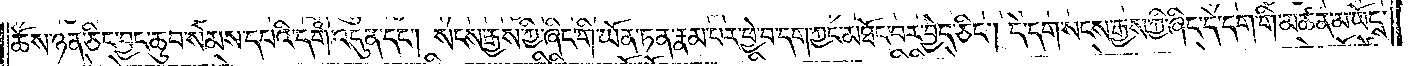ཆོས་ཉན་ཅིང་བྱང་ཆུབ་སེམས་དཔའི་དགེ་འདུན་དང༌། སངས་རྒྱས་ཀྱི་ཞིང་གི་ཡོན་ཏན་རྣམ་པར་ཕྱེ་བ་དག་ཀྱང་མཐོང་བར་བྱེད་ཅིང༌། དེ་དག་སངས་རྒྱས་ཀྱི་ཞིང་དེ་དག་གི་མཚན་མ་ཡོངས་
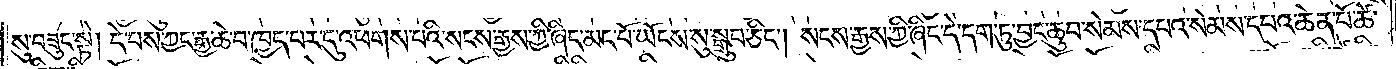སུ་བཟུང་སྟེ། དེ་བས་ཀྱང་རྒྱ་ཆེ་བ་ཁྱད་པར་དུ་འཕགས་པའི་སངས་རྒྱས་ཀྱི་ཞིང་མང་པོ་ཡོངས་སུ་སྒྲུབ་ཅིང༌། སངས་རྒྱས་ཀྱི་ཞིང་དེ་དག་ཏུ་བྱང་ཆུབ་སེམས་དཔའ་སེམས་དཔའ་ཆེན་པོ་ཚེ་
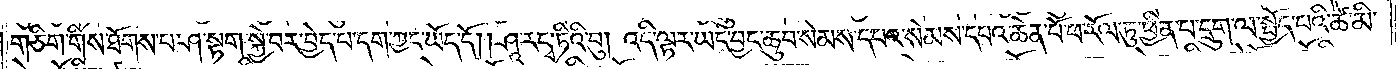གཅིག་གིས་ཐོགས་པ་ཤ་སྟག་སྐྱེ་བར་བྱེད་པ་དག་ཀྱང་ཡོད་དོ། །ཤཱ་རདྭ་ཏིའི་བུ། འདི་ལྟར་ཡང་བྱང་ཆུབ་སེམས་དཔའ་སེམས་དཔའ་ཆེན་པོ་ཕ་རོལ་ཏུ་ཕྱིན་པ་དྲུག་ལ་སྤྱོད་པའི་ཚེ་མི་
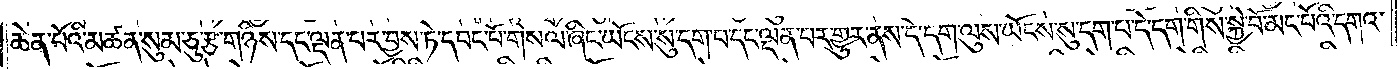ཆེན་པོའི་མཚན་སུམ་ཅུ་རྩ་གཉིས་དང་ལྡན་པར་བྱས་ཏེ་དབང་པོ་གསལ་ཞིང་ཡོངས་སུ་དག་པ་དང་ལྡན་པར་གྱུར་ནས་དེ་དག་ལུས་ཡོངས་སུ་དག་པ་དེ་དག་གིས་སྐྱེ་བོ་མང་པོའི་དགའ་
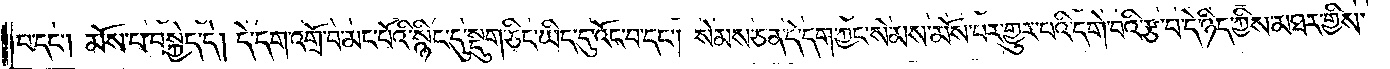བ་དང༌། མོས་པ་བསྐྱེད་དེ། དེ་དག་འགྲོ་བ་མང་པོའི་སྙིང་དུ་སྡུག་ཅིང་ཡིད་དུ་འོང་བ་དང༌། སེམས་ཅན་དེ་དག་ཀྱང་སེམས་མོས་པར་གྱུར་པའི་དགེ་བའི་རྩ་བ་དེ་ཉིད་ཀྱིས་མཐར་གྱིས་
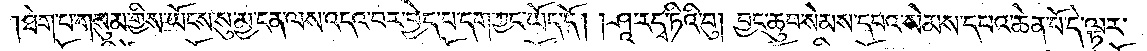ཐེག་པ་གསུམ་གྱིས་ཡོངས་སུ་མྱ་ངན་ལས་འདའ་བར་བྱེད་པ་དག་ཀྱང་ཡོད་དོ། །ཤཱ་ར་དྭ་ཏིའི་བུ། བྱང་ཆུབ་སེམས་དཔའ་སེམས་དཔའ་ཆེན་པོ་དེ་ལྟར་
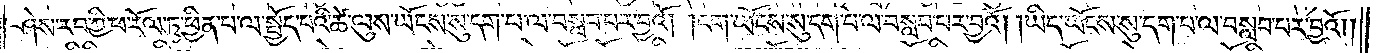ཤེས་རབ་ཀྱི་ཕ་རོལ་ཏུ་ཕྱིན་པ་ལ་སྤྱོད་པའི་ཚེ་ལུས་ཡོངས་སུ་དག་པ་ལ་བསླབ་པར་བྱའོ། །ངག་ཡོངས་སུ་དག་པ་ལ་བསླབ་པར་བྱའོ། །ཡིད་ཡོངས་སུ་དག་པ་ལ་བསླབ་པར་བྱའོ། །
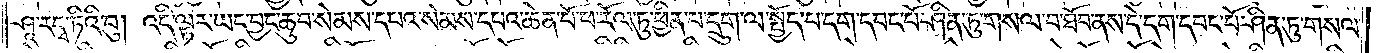ཤཱ་ར་དྭ་ཏིའི་བུ། འདི་ལྟར་ཡང་བྱང་ཆུབ་སེམས་དཔའ་སེམས་དཔའ་ཆེན་པོ་ཕ་རོལ་ཏུ་ཕྱིན་པ་དྲུག་ལ་སྤྱོད་པ་དག་དབང་པོ་ཤིན་ཏུ་གསལ་བ་ཐོབ་ནས་དེ་དག་དབང་པོ་ཤིན་ཏུ་གསལ་
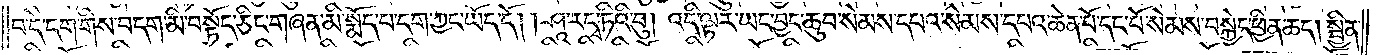བ་དེ་དག་གིས་བདག་མི་བསྟོད་ཅིང་གཞན་མི་སྨོད་པ་དག་ཀྱང་ཡོད་དོ། །ཤཱ་ར་དྭ་ཏིའི་བུ། འདི་ལྟར་ཡང་བྱང་ཆུབ་སེམས་དཔའ་སེམས་དཔའ་ཆེན་པོ་དང་པོ་སེམས་བསྐྱེད་ཕྱིན་ཆད། སྦྱིན་
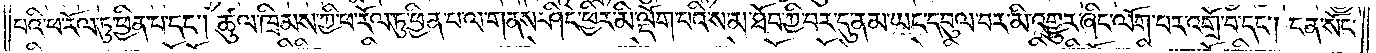པའི་ཕ་རོལ་ཏུ་ཕྱིན་པ་དང༌། ཚུལ་ཁྲིམས་ཀྱི་ཕ་རོལ་ཏུ་ཕྱིན་པ་ལ་གནས་ཤིང་ཕྱིར་མི་ལྡོག་པའི་ས་མ་ཐོབ་ཀྱི་བར་དུ་ནམ་ཡང་དབུལ་བར་མི་འགྱུར་ཞིང་ལོག་པར་འགྲོ་བ་དང༌། ངན་སོང་
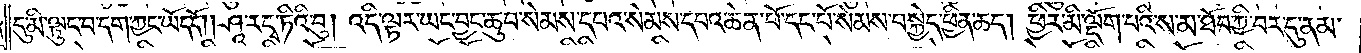དུ་མི་ལྟུང་བ་དག་ཀྱང་ཡོད་དོ། །ཤཱ་ར་དྭ་ཏིའི་བུ། འདི་ལྟར་ཡང་བྱང་ཆུབ་སེམས་དཔའ་སེམས་དཔའ་ཆེན་པོ་དང་པོ་སེམས་བསྐྱེད་ཕྱིན་ཆད། ཕྱིར་མི་ལྡོག་པའི་ས་མ་ཐོབ་ཀྱི་བར་དུ་ནམ་
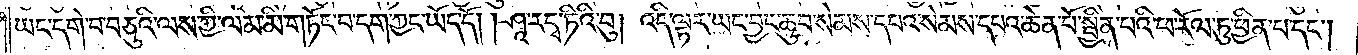ཡང་དགེ་བ་བཅུའི་ལས་ཀྱི་ལམ་མི་གཏོང་བ་དག་ཀྱང་ཡོད་དོ། །ཤཱ་ར་དྭ་ཏིའི་བུ། འདི་ལྟར་ཡང་བྱང་ཆུབ་སེམས་དཔའ་སེམས་དཔའ་ཆེན་པོ་སྦྱིན་པའི་ཕ་རོལ་ཏུ་ཕྱིན་པ་དང༌།
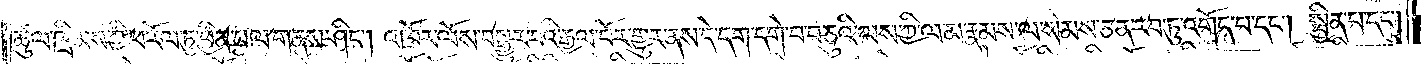ཚུལ་ཁྲིམས་ཀྱི་ཕ་རོལ་ཏུ་ཕྱིན་པ་ལ་གནས་ཤིང༌། འཁོར་ལོས་བསྒྱུར་བའི་རྒྱལ་པོར་གྱུར་ནས་དེ་དག་དགེ་བ་བཅུའི་ལས་ཀྱི་ལམ་རྣམས་ལ་སེམས་ཅན་རབ་ཏུ་འགོད་པ་དང༌། སྦྱིན་པ་དང༌།
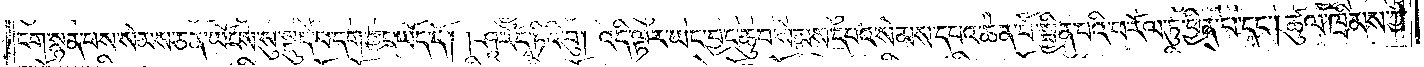ངག་སྙན་པས་སེམས་ཅན་ཡོངས་སུ་སྡུད་པ་དག་ཀྱང་ཡོད་དོ། །ཤཱ་ར་དྭ་ཏིའི་བུ། འདི་ལྟར་ཡང་བྱང་ཆུབ་སེམས་དཔའ་སེམས་དཔའ་ཆེན་པོ་སྦྱིན་པའི་ཕ་རོལ་ཏུ་ཕྱིན་པ་དང༌། ཚུལ་ཁྲིམས་ཀྱི་
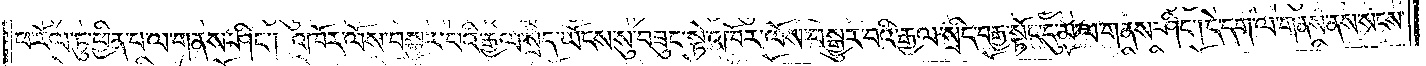ཕ་རོལ་ཏུ་ཕྱིན་པ་ལ་གནས་ཤིང༌། འཁོར་ལོས་བསྒྱུར་པའི་རྒྱལ་སྲིད་ཡོངས་སུ་བཟུང་སྟེ་འཁོར་ལོས་བསྒྱུར་བའི་རྒྱལ་སྲིད་བརྒྱ་སྟོང་དུ་མ་ལ་གནས་ཤིང༌། དེ་དག་ལ་གནས་ནས་སངས་
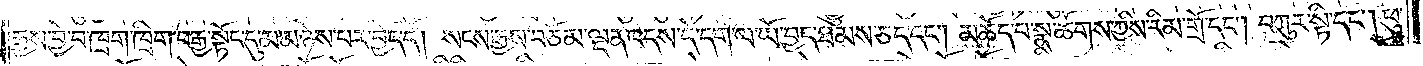རྒྱས་བྱེ་བ་ཁྲག་ཁྲིག་བརྒྱ་སྟོང་དུ་མ་མཉེས་པར་བྱེད་དོ། སངས་རྒྱས་བཅོམ་ལྡན་འདས་དེ་དག་ལ་ཡོ་བྱད་ཐམས་ཅད་དང༌། མཆོད་པ་སྣ་ཚོགས་ཀྱིས་རིམ་གྲོ་དང༌། བཀུར་སྟི་དང༌། ཕུ་
